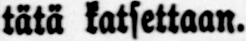tätä katsettaan.
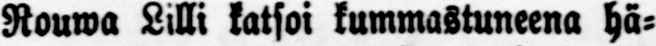Rouwa Lilli katsoi kummastuneena hä-
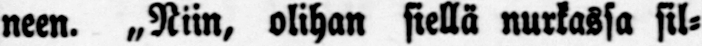neen. „Niin, olihan siellä nurkassa sil-
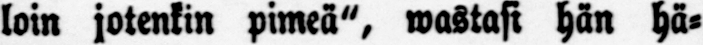loin jotenkin pimeä", wastasi hän hä-
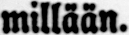millään.
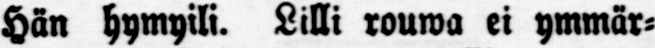Hän hymyili. Lilli rouwa ei ymmär-
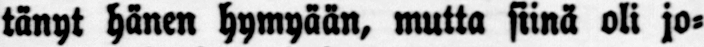tänyt hänen hymyään, mutta siinä oli jo-
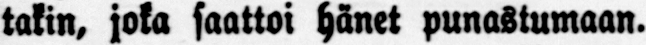takin, joka saattoi hänet punastumaan.
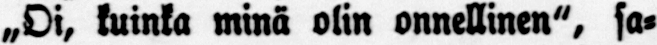„Oi, kuinka minä olin onnellinen", sa-
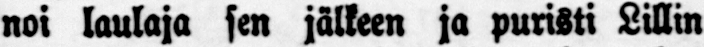noi laulaja sen jälkeen ja puristi Lillin
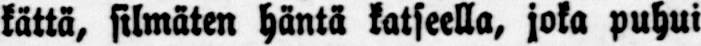kättä, silmäten häntä katseella, joka puhui
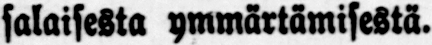salaisesta ymmärtämisestä.
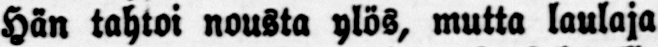Hän tahtoi nousta ylös, mutta laulaja
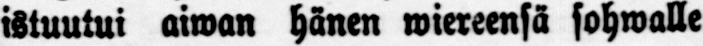istuutui aiwan hänen wiereensä sohwalle
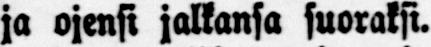ja ojensi jalkansa suoraksi.
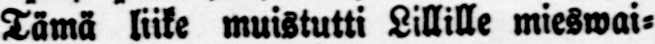Tämä liike muistutti Lillille mieswai-
